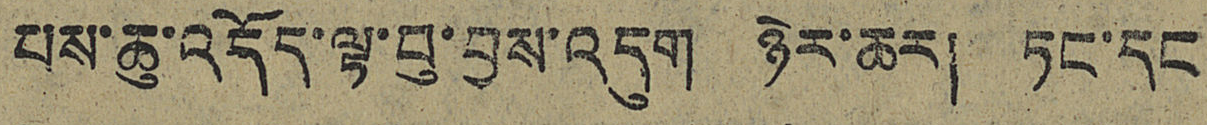པས་ཆུ་འདོད་ལྟ་བུ་བྱས་འདུག ཉེར་ཆར། ཏང་དང
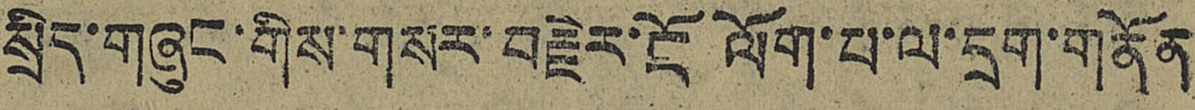སྲིད་གཞུང་གིས་གསར་བརྗེར་ངོ ལོག་པ་ལ་དྲག་གནོན
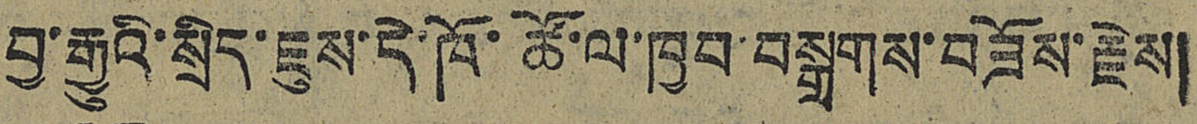བྱ་རྒྱུའི་སྲིད་ཇུས་དེ་ཁོ་ཚོ་ལ་ཁྱབ་བསྒྲགས་བཟོས་རྗེས།
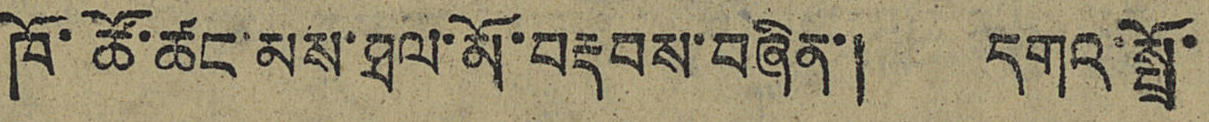ཁོ་ཚོ་ཚང་མས་ཐལ་མོ་བརྡབས་བཞིན་། དགའ་སྤྲོ་
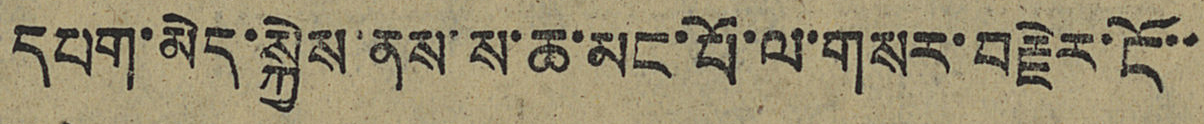དཔག་མེད་སྐྱེས་ནས་ས་ཆ་མང་པོ་ལ་གསར་བརྗེར་ངོ་་
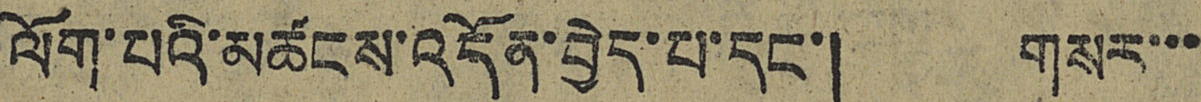ལོག་པའི་མཚངས་འདོན་བྱེད་པ་དང་། གསར་་་
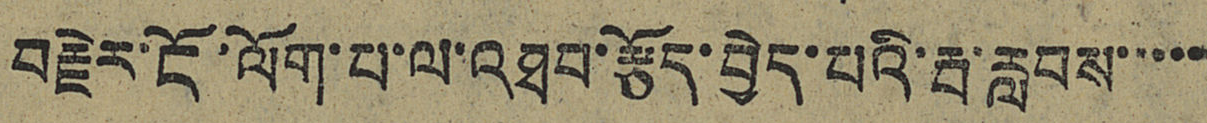བརྗེར་ངོ་ལོག་པ་ལ་འཐབ་རྩོད་བྱེད་པའི་རྦ་རླབས་་་་་
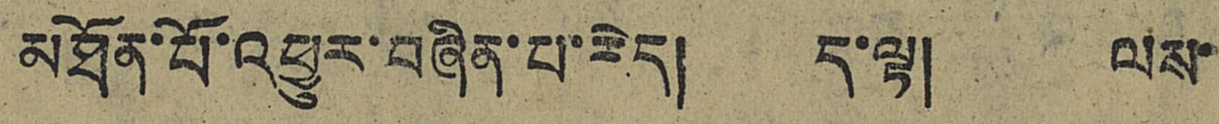མཐོན་པོ་འཕྱུར་བཞིན་པ་རེད། ད་ལྟ། ལས་
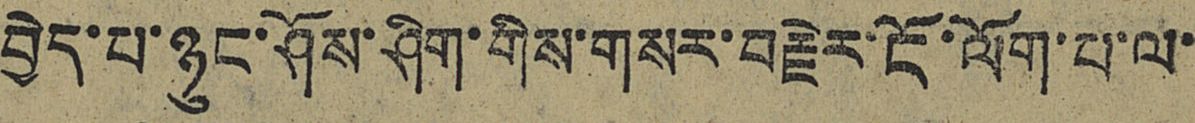བྱེད་པ་ཉུང་ཤོས་ཤིག་གིས་གསར་བརྗེར་ངོ་ལོག་པ་ལ་
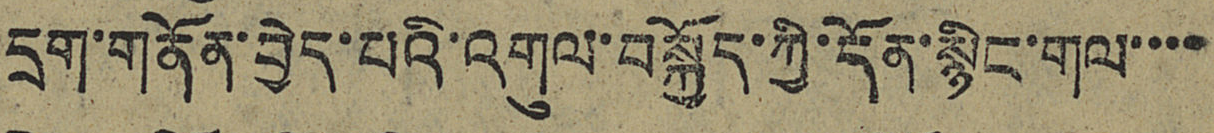དྲག་གནོན་བྱེད་པའི་འགུལ་བསྐྱོད་ཀྱི་དོན་སྙིང་གལ་་་་
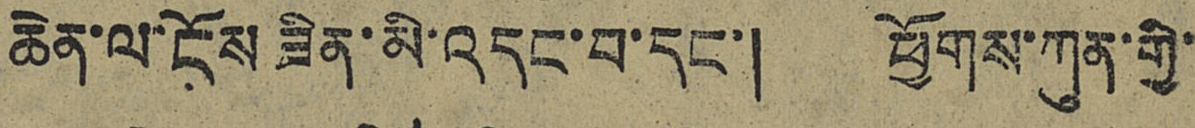ཆེན་ལ་ངོས ཟིན་མི་འདང་བ་དང་། ཕྱོགས་ཀུན་གྱི་
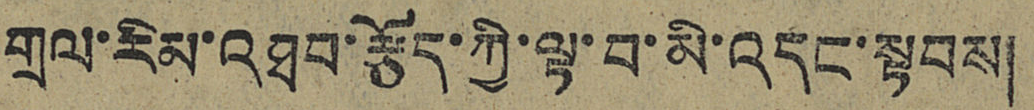གྲལ་རིམ་འཐབ་རྩོད་ཀྱི་ལྟ་བ་མི་འདང་སྟབས།
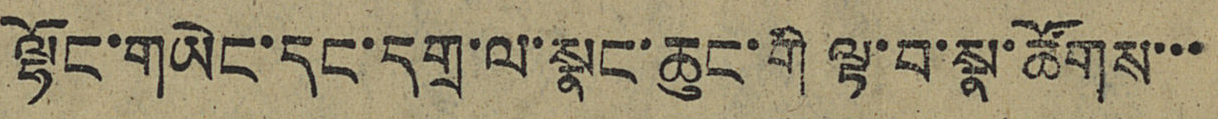ལྷོང་གཡེང་དང་དགྲ་ལ་སྣང་ཆུང་གི་ལྟ་བ་སྣ་ཚོགས་་་
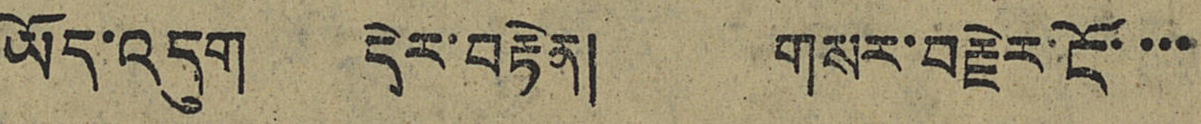ཡོད་འདུག དེར་བརྟེན། གསར་བརྗེར་ངོ་་་་
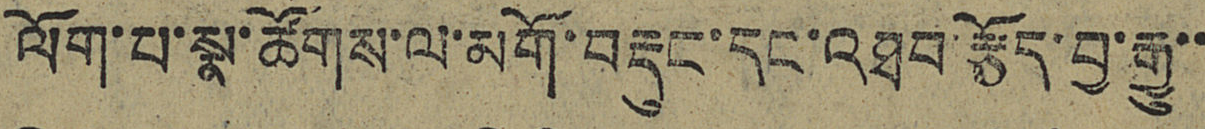ལོག་པ་སྣ་ཚོགས་ལ་མགོ་བརྡུང་དང་འཐབ་རྩོད་བྱ་རྒྱུ་་
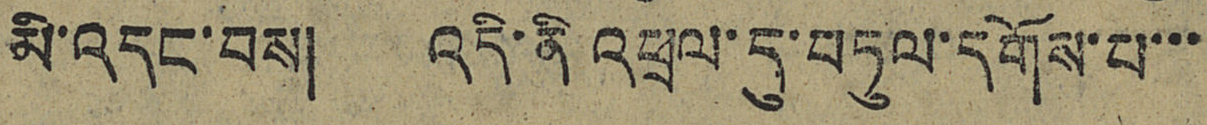མི་འདང་བྱས། འདི་ནི འཕྲལ་དུ་བཏུལ་དགོས་པ་་་
